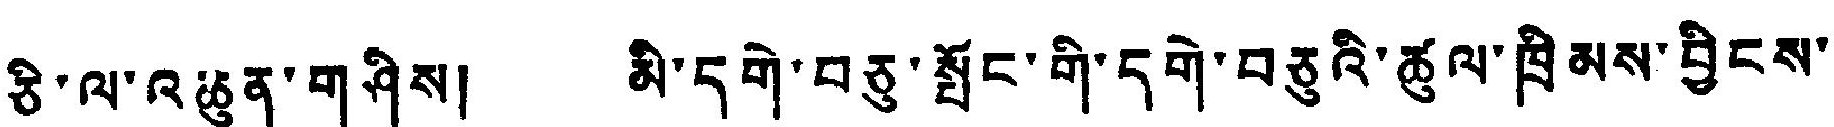ཅི་ལ་འཆུན་གཤིས། མི་དགེ་བཅུ་སྤོང་གི་དགེ་བཅུའི་ཚུལ་ཁྲིམས་བྱིངས་
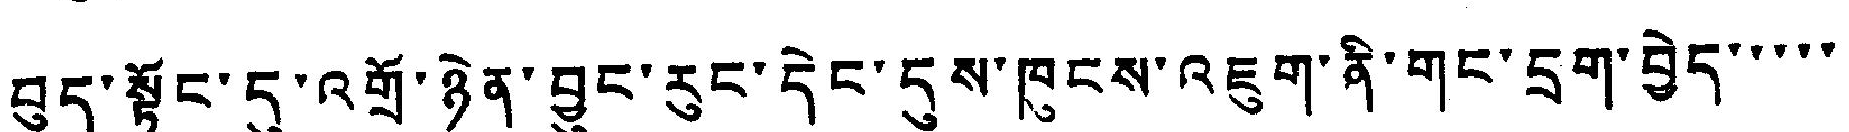བུད་སྟོང་དུ་འགྲོ་ཉེན་བྱུང་རུང་དེང་དུས་ཁུངས་འཇུག་ནི་གང་དྲག་བྱེད་་་་་
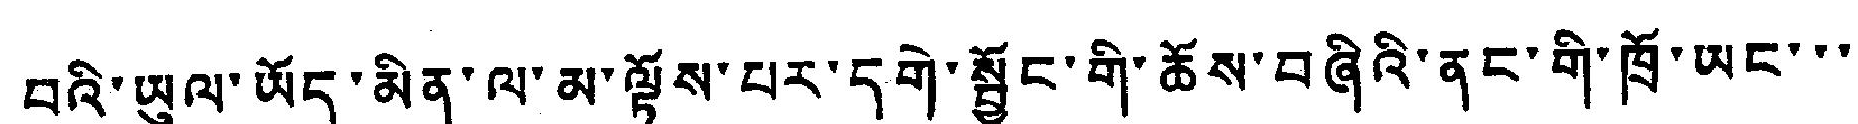བའི་ཡུལ་ཡོད་མིན་ལ་མ་ལྟོས་པར་དགེ་སྦྱོང་གི་ཆོས་བཞིའི་ནང་གི་ཁྲོ་ཡང་་་
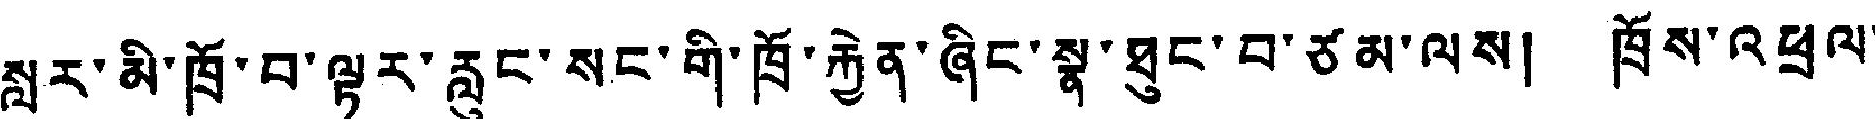སླར་མི་ཁྲོ་བ་ལྟར་རླུང་སང་གི་ཁྲོ་རྐྱེན་ཞིང་སྣ་ཐུང་བ་ཙམ་ལས། ཁྲོས་འཕྲལ་
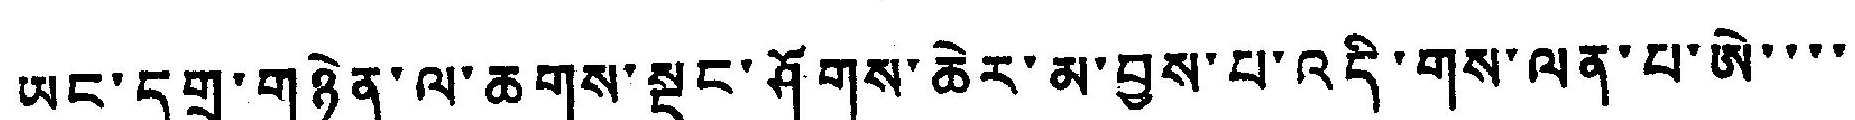ཡང་དགྲ་གཉེན་ལ་ཆགས་སྡང་ཤོགས་ཆེར་མ་བྱས་པ་འདི་གས་ལན་པ་ཨེ་་་་
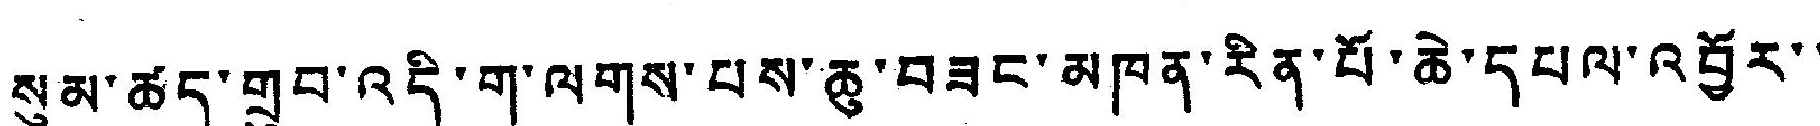སུམ་ཚད་གྲུབ་འདི་ག་ལགས་པས་ཆུ་བཟང་མཁན་རིན་པོ་ཆེ་དཔལ་འབྱོར་
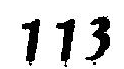113
